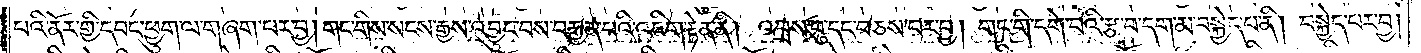པའི་ནོར་གྱི་དབང་ཕྱུག་ལ་གཞག་པར་བྱ། གང་གིས་སངས་རྒྱས་འབྱུང་བས་བརྒྱན་པའི་འཇིག་རྟེན་ནི། འབྲས་བུ་དང་བཅས་པར་བྱ། གང་གི་དགེ་བའི་རྩ་བ་དག་མ་བསྐྱེད་པ་ནི། བསྐྱེད་པར་བྱ།
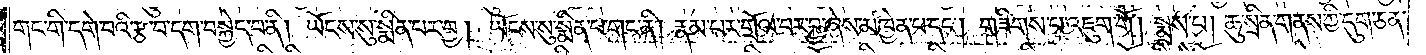གང་གི་དགེ་བའི་རྩ་བ་དག་བསྐྱེད་པ་ནི། ཡོངས་སུ་སྨིན་པར་བྱ། ཡོངས་སུ་སྨིན་པ་གང་ནི། རྣམ་པར་གྲོལ་བར་བྱ་ཞེས་མཁྱེན་པ་དང༌། གཟིགས་པ་འཇུག་གོ །སྨྲས་པ། ཆུ་སྲིན་གནས་ཀྱི་དུག་ཅན་
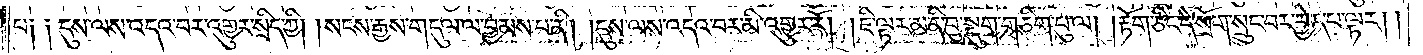པ༑ ༑དུས་ལས་འདའ་བར་འགྱུར་སྲིད་ཀྱི། །སངས་རྒྱས་གདུལ་ལ་བྱམས་པ་ནི། །དུས་ལས་འདའ་བར་མི་འགྱུར་རོ། །ཇི་ལྟར་མ་ནི་བུ་སྡུག་གཅིག་པུ་ལ། །རྟོག་ཅིང་དེ་སྲོག་སྲུང་བར་བྱེད་པ་ལྟར། །
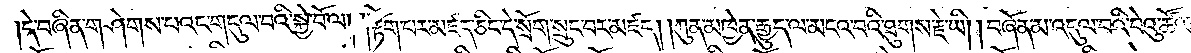།དེ་བཞིན་གཤེགས་པའང་གདུལ་བའི་སྐྱེ་བོ་ལ། །རྟོག་པར་མཛད་ཅིང་དེ་སྲོག་སྲུང་བར་མཛད། །ཀུན་མཁྱེན་རྒྱུད་ལ་མངའ་བའི་ཐུགས་རྗེ་ཡི། བཞོན་མ་འདུལ་བའི་བེའུ་ཚོལ་
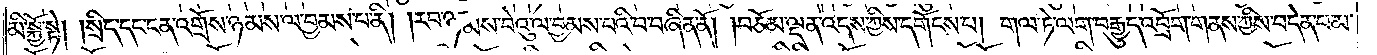མི་སྐྱོ་སྟེ། །སྲིད་དང་ངན་འགྲོས་ཉམས་ལ་བྱམས་པ་ནི། །རབ་ཉམས་བེའུ་ལ་བྱམས་པའི་བ་བཞིན་ནོ། །བཅོམ་ལྡན་འདས་ཀྱིས་དགོངས་པ། གལ་ཏེ་ལག་བརྒྱུད་འབྲོག་གནས་ཀྱིས་བདེན་པ་མ་
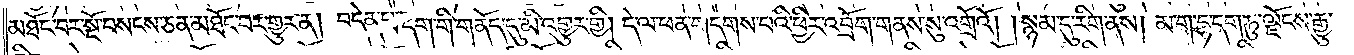མཐོང་བར་སྔོ་བསངས་ཅན་མཐོང་བར་གྱུར་ན། བདེན་པ་དག་གི་གནོད་དུ་མི་འགྱུར་གྱི། དེ་ལ་ཕན་གདགས་པའི་ཕྱིར་འབྲོག་གནས་སུ་འགྲོའོ། །སྙམ་དུ་རིག་ནས། མ་ག་དྷ་དག་ཏུ་ལྗོངས་རྒྱུ་
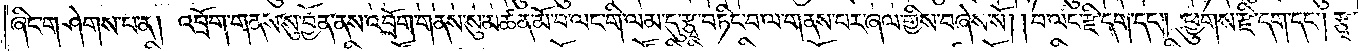ཞིང་གཤེགས་པ་ན། འབྲོག་གནས་སུ་བྱོན་ནས་འབྲོག་གནས་སུ་མཚན་མོ་བ་ལང་གི་ལམ་དུ་རྩྭ་བཏིང་བ་ལ་གནས་པར་ཞལ་གྱིས་བཞེས་སོ། །བ་ལང་རྫི་དག་དང༌། ཕྱུགས་རྫི་དག་དང༌། རྩྭ་
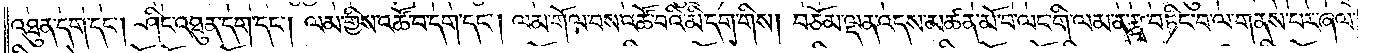འཐུན་དག་དང༌། ཤིང་འཐུན་དག་དང༌། ལམ་གྱིས་འཚོ་བ་དག་དང༌། ལམ་གོལ་བས་འཚོ་བའི་མི་དག་གིས། བཅོམ་ལྡན་འདས་མཚན་མོ་བ་ལང་གི་ལམ་ན་རྩྭ་བཏིང་བ་ལ་གནས་པར་ཞལ་
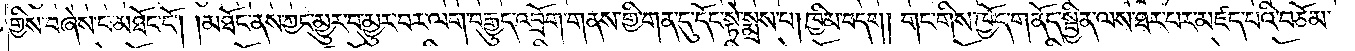གྱིས་བཞེས་པ་མཐོང་ངོ༌། །མཐོང་ནས་ཀྱང་མྱུར་བ་མྱུར་བར་ལག་བརྒྱུད་འབྲོག་གནས་གྱི་གན་དུ་དོང་སྟེ་སྨྲས་པ། ཁྱིམ་བདག །གང་གིས་ཁྱོད་གནོད་སྦྱིན་ལས་ཐར་པར་མཛད་པའི་བཅོམ་
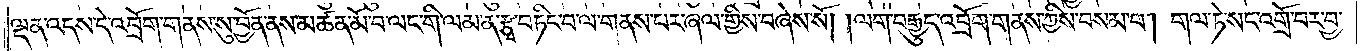ལྡན་འདས་དེ་འབྲོག་གནས་སུ་བྱོན་ནས་མཚན་མོ་བ་ལང་གི་ལམ་ན་རྩྭ་བཏིང་བ་ལ་གནས་པར་ཞལ་གྱིས་བཞེས་སོ། །ལག་བརྒྱུད་འབྲོག་གནས་ཀྱིས་བསམ་པ། གལ་ཏེ་སང་འགྲོ་བར་བྱ་
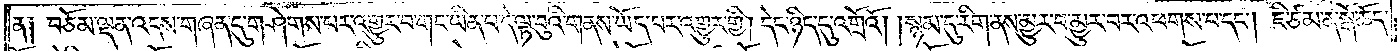ན༑ བཅོམ་ལྡན་འདས་གཞན་དུ་གཤེགས་པར་འགྱུར་བ་གང་ཡིན་པ་དེ་ལྟ་བུའི་གནས་ཡོད་པར་འགྱུར་གྱི། དེང་ཉིད་དུ་འགྲོའོ། །སྙམ་དུ་རིག་ནས་མྱུར་བ་མྱུར་བར་འཕགས་པ་དང༌། ཇི་ཙམ་ན་སྒོ་ཆོད་
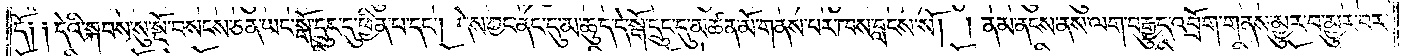དོ༑ ༑དེའི་སྐབས་སུ་སྔོ་བསངས་ཅན་ཡང་སྒོ་དྲུང་དུ་ཕྱིན་པ་དང༌། དེས་ཀྱང་ནང་དུ་མ་ཆུད་དེ་སྒོ་དྲུང་དུ་མཚན་མོ་གནས་པར་ཁས་བླངས་སོ། །ནམ་ནངས་ནས་ལག་བརྒྱུད་འབྲོག་གནས་མྱུར་བ་མྱུར་བར་
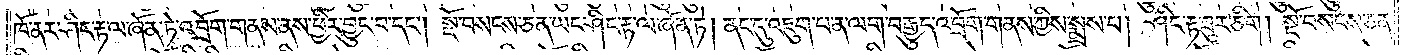ཁོ་ནར་ཤིང་རྟ་ལ་ཞོན་ཏེ་འབྲོག་གནས་ནས་ཕྱིར་བྱུང་བ་དང༌། སྔོ་བསངས་ཅན་ཡང་ཤིང་རྟ་ལ་ཞོན་ཏེ། ནང་དུ་འཇུག་པ་ན་ལག་བརྒྱུད་འབྲོག་གནས་ཀྱིས་སྨྲས་པ། ཤིང་རྟ་ཟུར་ཅིག །སྔོ་བསངས་ཅན་
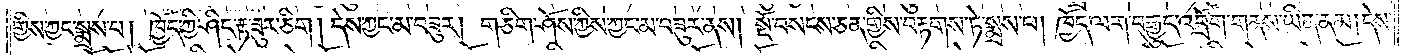གྱིས་ཀྱང་སྨྲས་པ། ཁྱོད་ཀྱི་ཤིང་རྟ་ཟུར་ཅིག །དེས་ཀྱང་མ་བཟུར། གཅིག་ཤོས་ཀྱིས་ཀྱང་མ་བཟུར་ནས། སྔོ་བསངས་ཅན་གྱིས་བརྟགས་ཏེ་སྨྲས་པ། ཁྱོད་ལག་བརྒྱུད་འབྲོག་གནས་ཡིན་ནམ། དེས་
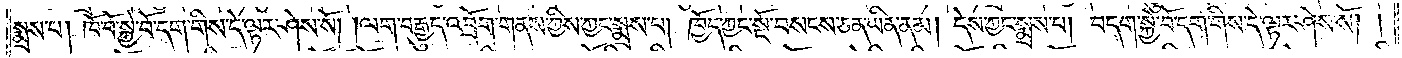སྨྲས་པ། ཁོ་བོ་སྐྱེ་བོ་དག་གིས་དེ་ལྟར་ཤེས་སོ། །ལག་བརྒྱུད་འབྲོག་གནས་ཀྱིས་ཀྱང་སྨྲས་པ། ཁྱོད་ཀྱང་སྔོ་བསངས་ཅན་ཡིན་ནམ། དེས་ཀྱང་སྨྲས་པ། བདག་སྐྱེ་བོ་དག་གིས་དེ་ལྟར་ཤེས་སོ། །
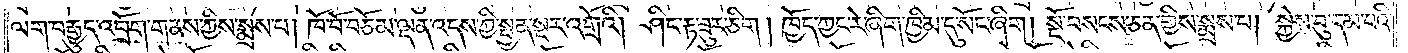ལག་བརྒྱུད་འབྲོག་གནས་ཀྱིས་སྨྲས་པ། ཁོ་བོ་བཅོམ་ལྡན་འདས་ཀྱི་སྤྱན་སྔར་འགྲོའི། །ཤིང་རྟ་ཟུར་ཅིག །ཁྱོད་ཀྱང་རེ་ཞིག་ཁྱིམ་དུ་སོང་ཞིག །སྔོ་བསངས་ཅན་གྱིས་སྨྲས་པ། སྐྱེས་བུ་དམ་པའི་
